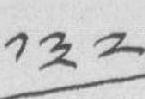༡༣༢
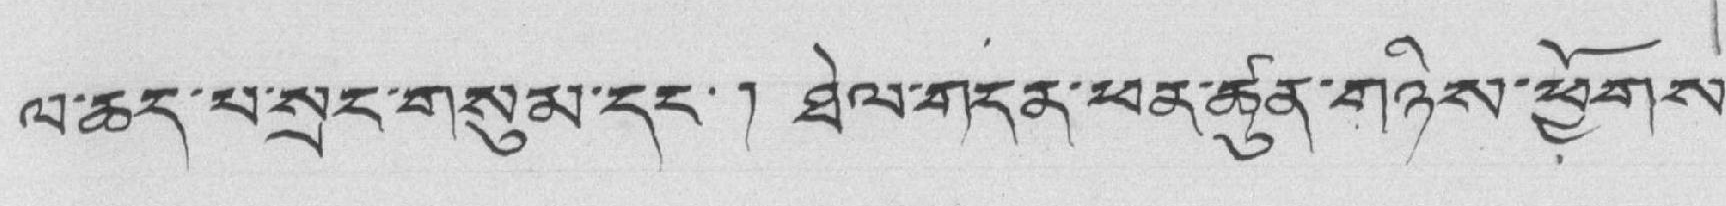ལ་ཆད་པ་སྲང་གསུམ་དང་། ཐེལ་གདན་ཕན་ཚུན་གཉིས་ཕྱོགས་
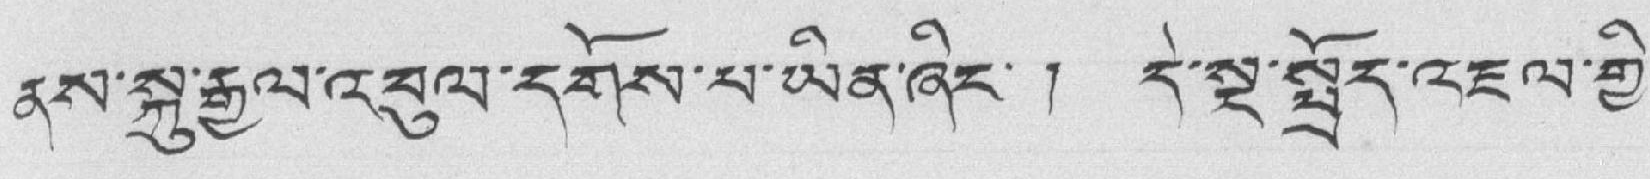ནས་སྐུ་རྒྱལ་འབུལ་དགོས་པ་ཡིན་ཞིང་། དེ་སྔ་སྤྲོད་འཇལ་གྱི་
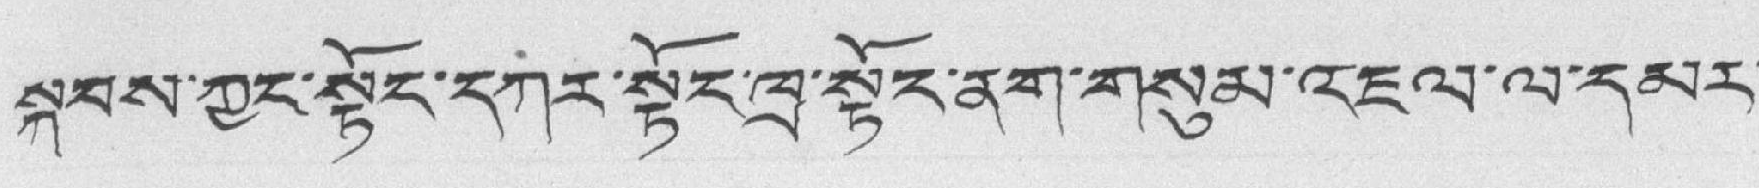སྐབས་ཀྱང་སྟོང་དཀར་སྟོང་ཁྲ་སྟོང་ནག་གསུམ་འཇལ་ལ་དམར་
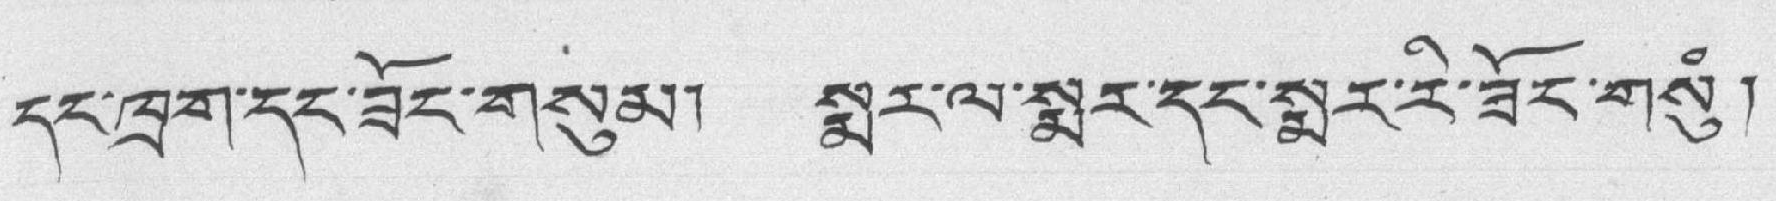དང་ཁྲག་དང་ཟོང་གསུམ། སྨར་ལ་སྨར་དང་སྨར་རི་ཟོང་གསུཾ་
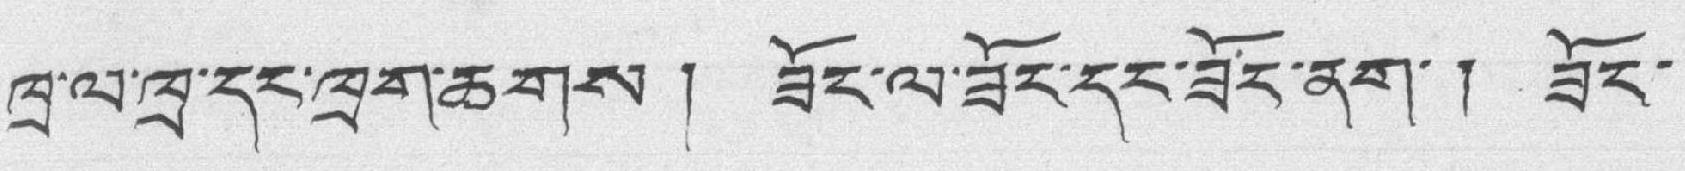ཁྲ་ལ་ཁྲ་དང་ཁྲག་ཆགས ། ཟོང་ལ་ཟོང་དང་ཟོང་ནག་ ། ཟོང་
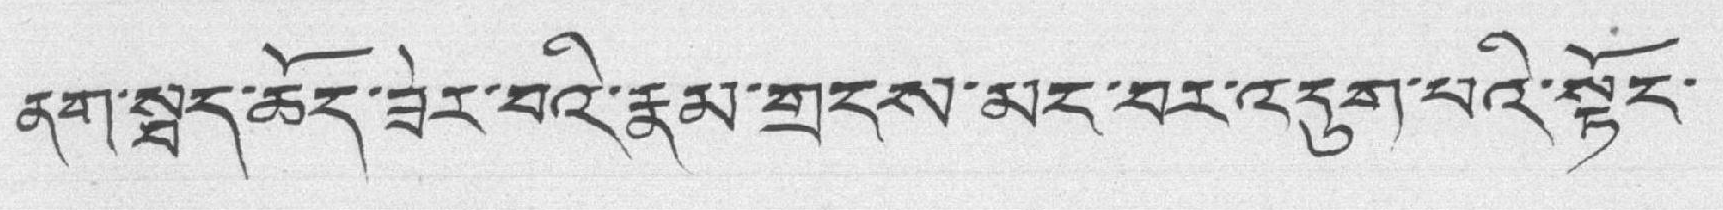ནག་སྦད་ཆོད་ཟེར་བའི་རྣམ་གྲངས་མང་བར་འདུག་པའི་སྟོང་
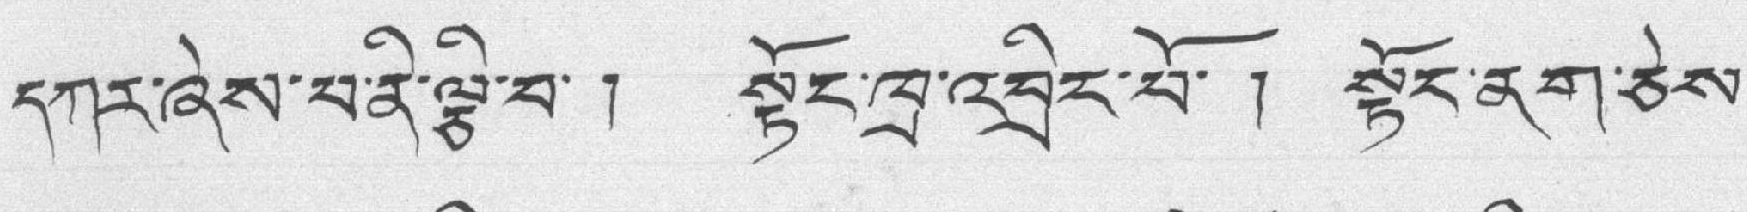དཀར་ཞེས་པ་ནི་ལྕི་བ་ ། སྟོང་ཁྲ་འབྲིང་པོ་ ། སྟོང་ནག་ཅེས་
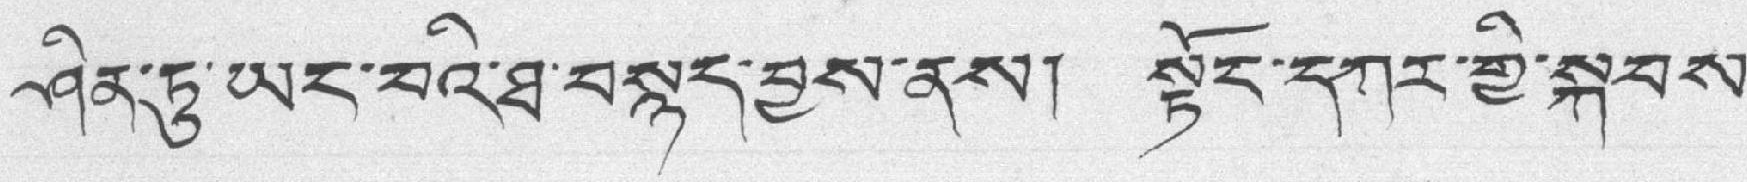ཤིན་ཏུ་ཡང་བའི་ཐ་བསྙད་བྱས་ནས། སྟོང་དཀར་གྱི་སྐབས་
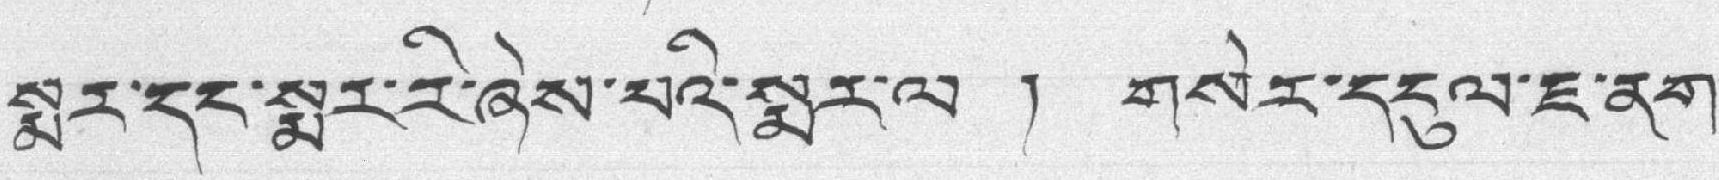སྨར་དང་སྨར་རི་ཞེས་པའི་སྨར་ལ ། གསེར་དངུལ་ཇ་ནག་
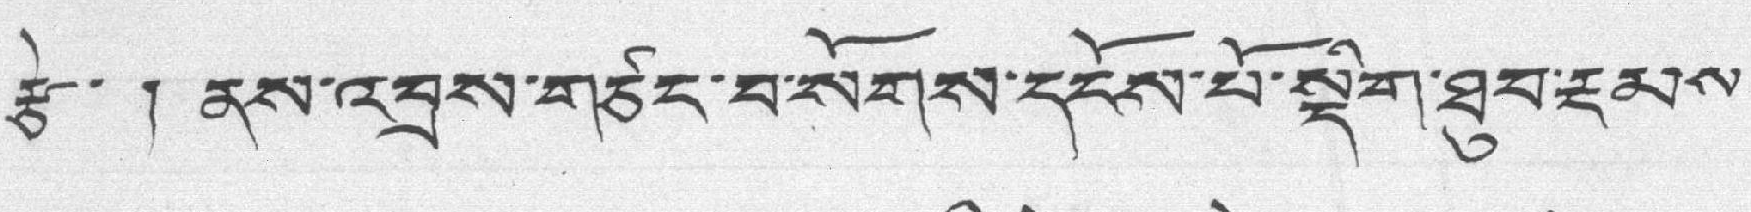རྩེ་ ། ནས་འབྲས་གཙང་བ་སོགས་དངོས་པོ་སྡིག་ཐུབ་རྔམས་
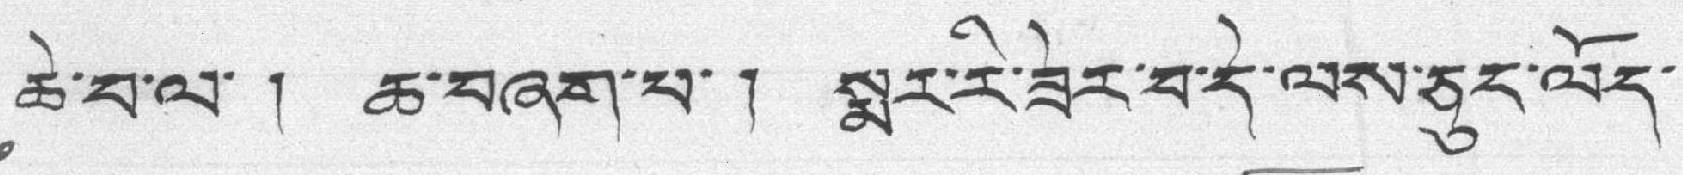ཆེ་བ་ལ་ ། ཆ་བཞག་པ་ ། སྨར་རི་ཟེར་བ་དེ་ལས་ཅུང་ལོད་
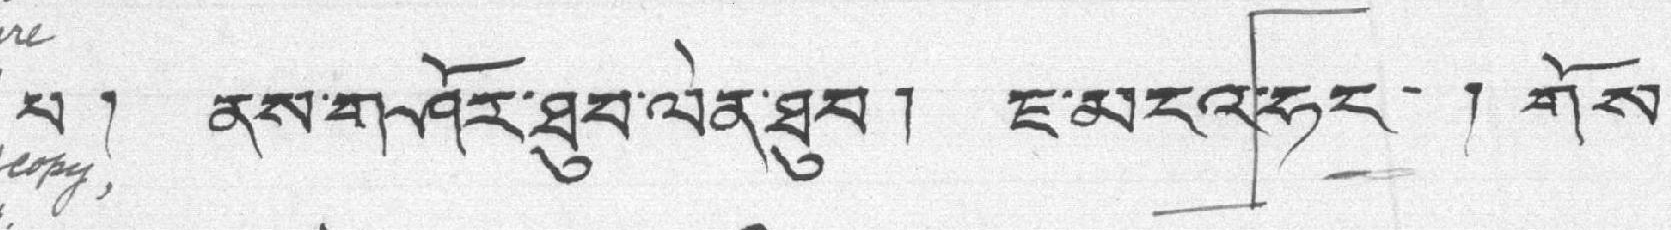པ ། ནས་གཤོར་ཐུབ་ལེན་ཐུབ། ཇ་མངའ་ཧང་ ། གོས་
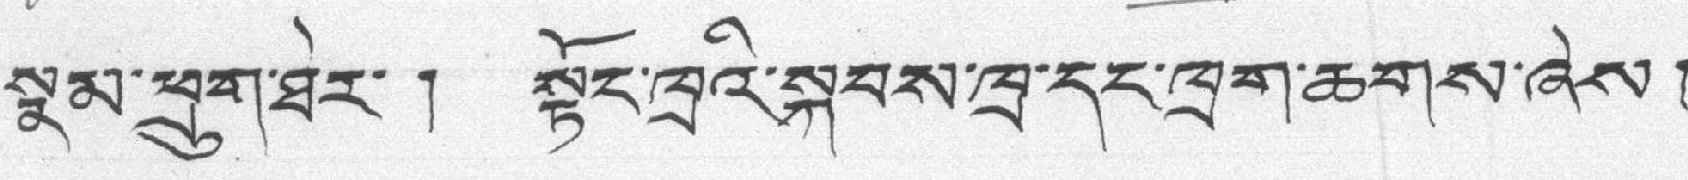སྣམ་ཕྲུག་ཐེར་ ། སྟོང་ཁྲའི་སྐབས་ཁྲ་དང་ཁྲག་ཆགས་ཞེས།
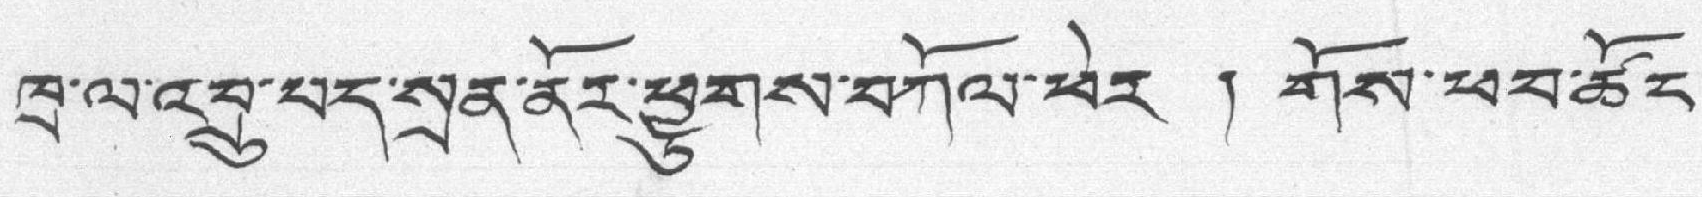ཁྲ་ལ་འབྲུ་པད་སྲན་ནོར་ཕྱུགས་བཀོལ་ཕེར ། གོས་ཕབ་ཚོང་
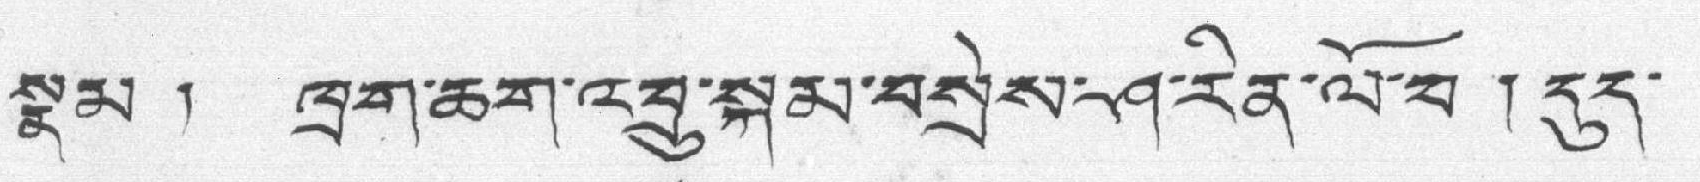སྣམ ། ཁྲག་ཆག་འབྲུ་སྐམ་བསྲེས་ཤ་རིན་ལོ་བ ། དུད་
